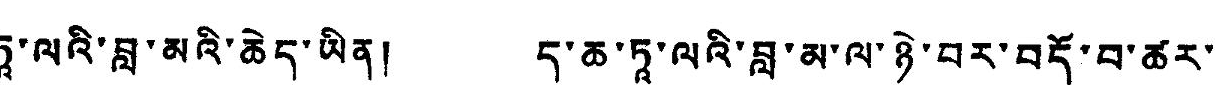ཏཱ་ལའི་བླ་མའི་ཆེད་ཡིན། ད་ཆ་ཏཱ་ལའི་བླ་མ་ལ་ཉེ་བར་བདོ་བ་ཚར་
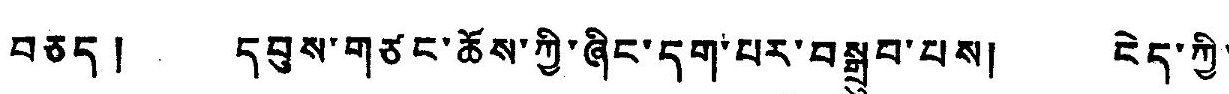བཅད། དབུས་གཙང་ཆོས་ཀྱི་ཞིང་དག་པར་བསྒྲུབ་པས། ངེད་ཀྱི་
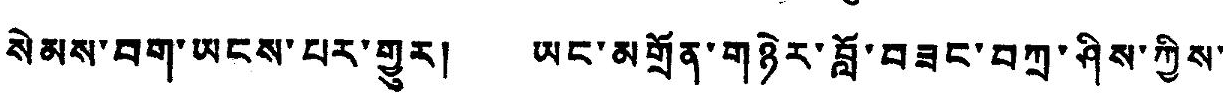སེམས་བག་ཡངས་པར་གྱུར། ཡང་མགྲོན་གཉེར་བློ་བཟང་བཀྲ་ཤིས་ཀྱིས་
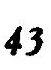43
